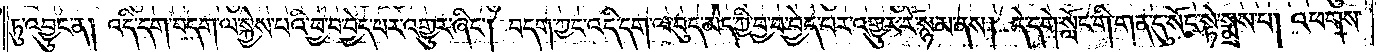ཏུ་འབྱུང་ན། འདི་དག་བདག་ལ་སྐྱེས་པའི་བྱ་བ་བྱེད་པར་འགྱུར་ཞིང༌། བདག་ཀྱང་འདི་དག་ལ་བུད་མེད་ཀྱི་བྱ་བ་བྱེད་པར་འགྱུར་རོ་སྙམ་ནས། དེ་དགེ་སློང་གི་གན་དུ་སོང་སྟེ་སྨྲས་པ། འཕགས་
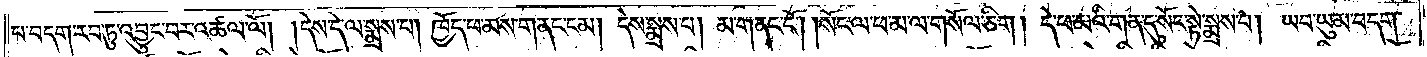པ་བདག་རབ་ཏུ་འབྱུང་བར་འཚལ་ལོ། །དེས་དེ་ལ་སྨྲས་པ། ཁྱོད་ཕ་མས་གནང་ངམ། དེས་སྨྲས་པ། མ་གནང་ངོ༌། །སོང་ལ་ཕ་མ་ལ་གསོལ་ཅིག། དེ་ཕ་མའི་གན་དུ་སོང་སྟེ་སྨྲས་པ། ཡབ་ཡུམ་བདག་
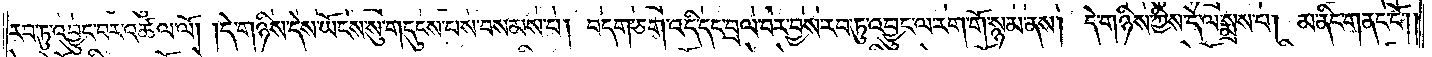རབ་ཏུ་འབྱུང་བར་འཚལ་ལོ། །དེ་གཉིས་དེས་ཡོངས་སུ་གདུངས་པས་བསམས་པ། བདག་ཅག་འདི་དང་བྲལ་བར་བྱས་རབ་ཏུ་འབྱུང་ལ་རག་གོ་སྙམ་ནས། དེ་གཉིས་ཀྱིས་དེ་ལ་སྨྲས་པ། མ་ནིང་གནང་ངོ༌༎
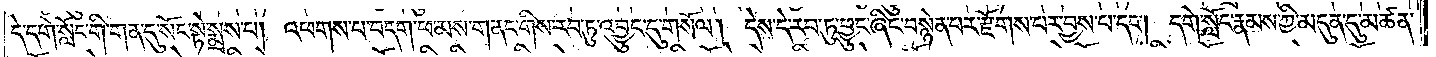དེ་དགེ་སློང་གི་གན་དུ་སོང་སྟེ་སྨྲས་པ། འཕགས་པ་བདག་ཕ་མས་གནང་གིས་རབ་ཏུ་འབྱུང་དུ་གསོལ། དེས་དེ་རབ་ཏུ་ཕྱུང་ཞིང་བསྙེན་པར་རྫོགས་པར་བྱས་པ་དང༌། དགེ་སློང་རྣམས་ཀྱི་མདུན་དུ་མཚན་
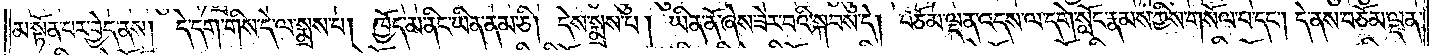མ་སྟོན་པར་བྱེད་ནས། དེ་དག་གིས་དེ་ལ་སྨྲས་པ། ཁྱོད་མ་ནིང་ཡིན་ནམ་ཅི། དེས་སྨྲས་པ། ཡིན་ནོ་ཞེས་ཟེར་བའི་སྐབས་དེ། བཅོམ་ལྡན་འདས་ལ་དགེ་སློང་རྣམས་ཀྱིས་གསོལ་པ་དང༌། དེ་ནས་བཅོམ་ལྡན་
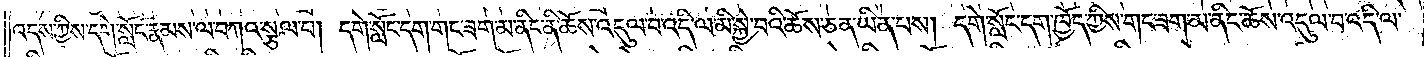འདས་ཀྱིས་དགེ་སློང་རྣམས་ལ་བཀའ་སྩལ་པ། དགེ་སློང་དག་གང་ཟག་མ་ནིང་ནི་ཆོས་འདུལ་བ་འདི་ལ་མི་སྐྱེ་བའི་ཆོས་ཅན་ཡིན་པས། དགེ་སློང་དག་ཁྱོད་ཀྱིས་གང་ཟག་མ་ནིང་ཆོས་འདུལ་བ་འདི་ལ་
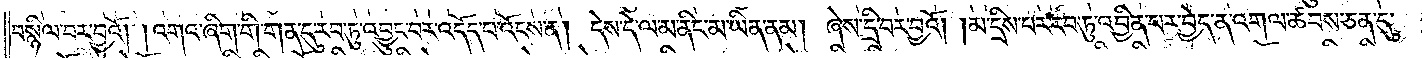བསྙིལ་བར་བྱའོ། །འགའ་ཞིག་གི་གན་དུ་རབ་ཏུ་འབྱུང་བར་འདོད་པ་འོངས་ན། དེས་དེ་ལ་མ་ནིང་མ་ཡིན་ནམ། ཞེས་དྲི་བར་བྱའོ། །མ་དྲིས་པར་རབ་ཏུ་འབྱིན་པར་བྱེད་ན་འགལ་ཚབས་ཅན་དུ་
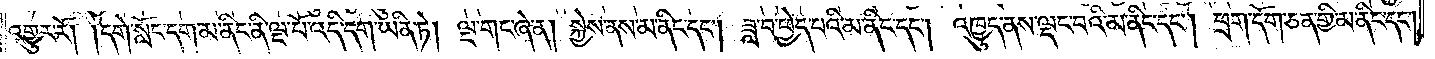འགྱུར་རོ། །དགེ་སློང་དག་མ་ནིང་ནི་ལྔ་པོ་འདི་དག་ཡིན་ཏེ། ལྔ་གང་ཞེ་ན། སྐྱེས་ནས་མ་ནིང་དང༌། ཟླ་བ་ཕྱེད་པའི་མ་ནིང་དང༌། འཁྱུད་ནས་ལྡང་བའི་མ་ནིང་དང༌། ཕྲག་དོག་ཅན་གྱི་མ་ནིང་དང༌།
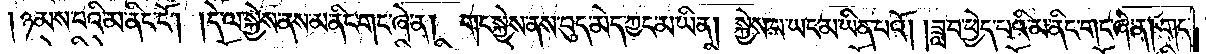ཉམས་པའི་མ་ནིང་ངོ༌། །དེ་ལ་སྐྱེས་ནས་མ་ནིང་གང་ཞེ་ན། གང་སྐྱེས་ནས་བུད་མེད་ཀྱང་མ་ཡིན། སྐྱེས་པ་ཡང་མ་ཡིན་པའོ། །ཟླ་བ་ཕྱེད་པའི་མ་ནིང་གང་ཞེ་ན། གང་
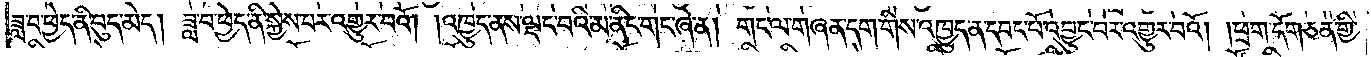ཟླ་བ་ཕྱེད་ནི་བུད་མེད། ཟླ་བ་ཕྱེད་ནི་སྐྱེས་པར་འགྱུར་བའོ། །འཁྱུད་ནས་ལྡང་བའི་མ་ནིང་གང་ཞེ་ན། གང་ལ་གཞན་དག་གིས་འཁྱུད་ན་དབང་པོ་འབྱུང་བར་འགྱུར་བའོ། །ཕྲག་དོག་ཅན་གྱི་
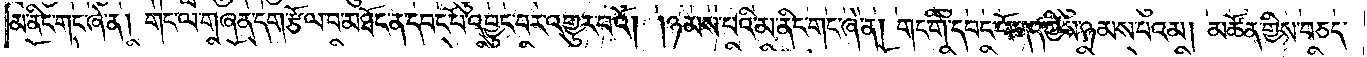མ་ནིང་གང་ཞེ་ན། གང་ལ་གཞན་དག་རྩོལ་བ་མཐོང་ན་དབང་པོ་འབྱུང་བར་འགྱུར་བའོ། །ཉམས་པའི་མ་ནིང་གང་ཞེ་ན། གང་གི་དབང་པོ་ནད་ཀྱིས་ཉམས་པའམ། མཚོན་གྱིས་བཅད་
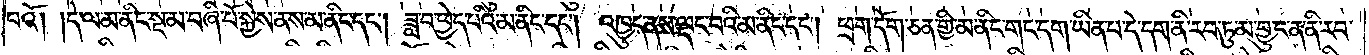པའོ། །དེ་ལ་མ་ནིང་སྔ་མ་བཞི་པོ་སྐྱེས་ནས་མ་ནིང་དང༌། ཟླ་བ་ཕྱེད་པའི་མ་ནིང་དང༌། འཁྱུད་ནས་ལྡང་བའི་མ་ནིང་དང༌། ཕྲག་དོག་ཅན་གྱི་མ་ནིང་གང་དག་ཡིན་པ་དེ་དག་ནི་རབ་ཏུ་མ་བྱུང་ན་ནི་རབ་
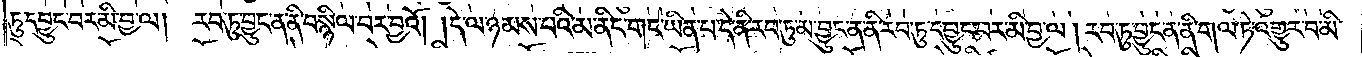ཏུ་དབྱུང་བར་མི་བྱ་ལ། རབ་ཏུ་བྱུང་ན་ནི་བསྙིལ་བར་བྱའོ། །དེ་ལ་ཉམས་པའི་མ་ནིང་གང་ཡིན་པ་དེ་ནི་རབ་ཏུ་མ་བྱུང་ན་ནི་རབ་ཏུ་དབྱུང་བར་མི་བྱ་ལ། རབ་ཏུ་བྱུང་ན་ནི་གལ་ཏེ་འགྱུར་བ་མི་
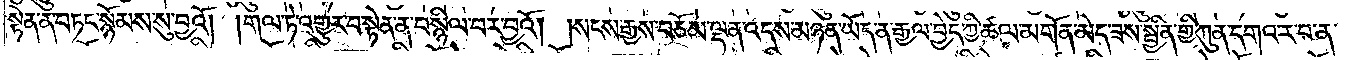སྟེན་ན་བཏང་སྙོམས་སུ་བྱའོ། །གལ་ཏེ་འགྱུར་བ་སྟེན་ན་བསྙིལ་བར་བྱའོ། །སངས་རྒྱས་བཅོམ་ལྡན་འདས་མཉན་ཡོད་ན་རྒྱལ་བྱེད་ཀྱི་ཚལ་མགོན་མེད་ཟས་སྦྱིན་གྱི་ཀུན་དགའ་ར་བ་ན་
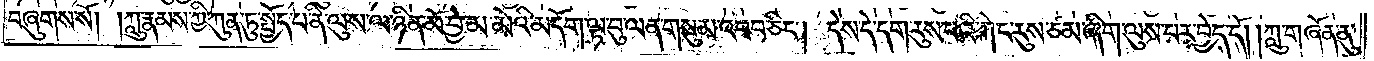བཞུགས་སོ། །ཀླུ་རྣམས་ཀྱི་ཀུན་ཏུ་སྤྱོད་པ་ནི་ལུས་ལ་ཉིན་མོ་བྱེ་མ་མེའི་མདོག་ལྟ་བུ་ལན་གསུམ་འབབ་ཅིང༌། དེས་དེ་དག་རུས་པའི་ཀེང་རུས་ཙམ་ཞིག་ལུས་པར་བྱེད་དོ། །ཀླུ་གཞོན་ནུ་
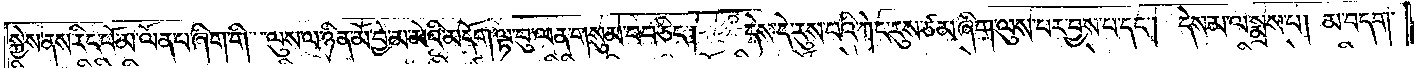སྐྱེས་ནས་རིང་པོ་མ་ལོན་པ་ཞིག་གི་ལུས་ལ་ཉིན་མོ་བྱེ་མ་མེའི་མདོག་ལྟ་བུ་ལན་གསུམ་བབ་ཅིང༌། དེས་དེ་རུས་པའི་ཀེང་རུས་ཙམ་ཞིག་ལུས་པར་བྱས་པ་དང༌། དེས་མ་ལ་སྨྲས་པ། མ་བདག་
